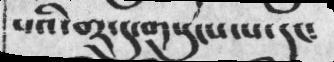པའི་བར་དུ་གསུངས་པ་དང༴
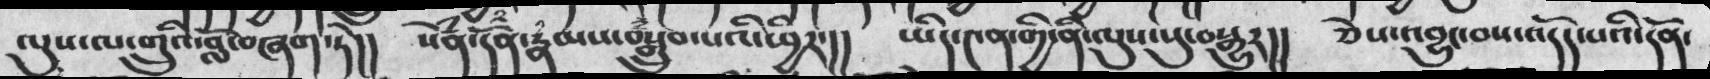ལུས་ལ་གྲུའི་བློ་བཞག་ཏེ།། སེཾན་དོན་རྣམས་བསྒྲུབ་པའི་ཕྱིར་།། ཡིད་༤ན་གྱི་ནི་ལུས་སུ་བསྒྱུར།། ཅེས་འབྱུང་བས་འདོད་པའི་དོན་
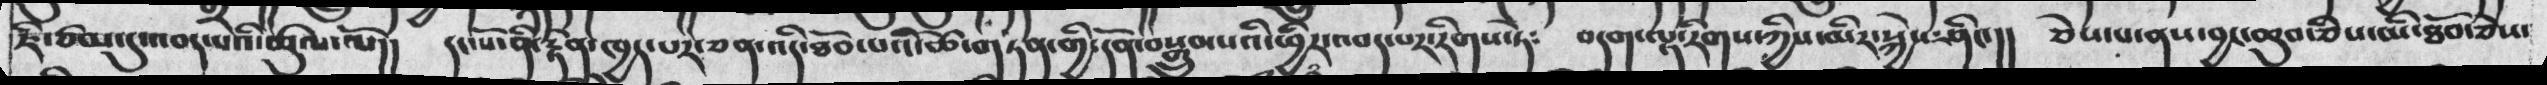ཇི་ཙམ་དུ་འབད་པའི་ཚུལ་ལོ།། དང་པོ་ནི་རྟེན་ཁྱད་པར་ཅན་འདི་ཐོབ་པའི་ཚེ་གཏན་གྱི་དོན་བསྒྲུབ་པའི་ཕྱིར་འབད་པར་རིགས་ཏེ༴ བདག་ལྷ་རིགས་ཀྱིས་མིར་སྐྱེས་ཤིང་།། ཅེས་པ་ནས་བྱང་ཆུབ་ཅེས་མི་ཐོབ་ཅེས་
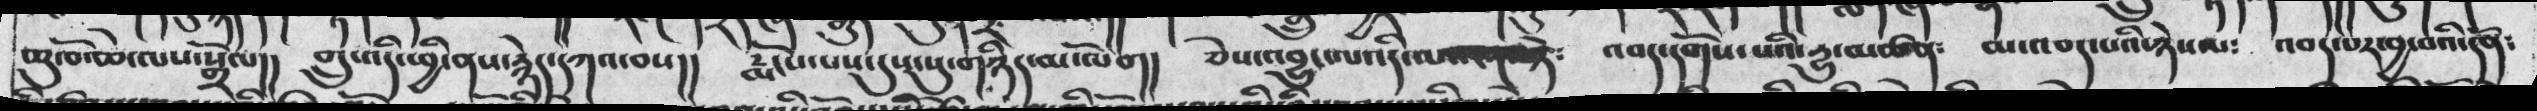ཆུ་བོ་ཆེ་ལས་སྒྲོལ།།  གྲུ་འདི་ཕྱི་ནས་རྙེད་དཀའ་བས།།   རྨོངས་པས་དུས་སུ་གཉིད་མ་ལོག།   ཅེས་འབྱུང་པ་འདི་ལ་     སྟེ༴   འབད་དགོས་པའི་དྱུ་མཚན༴   མ་འབད་པའི་ཉེས་པ༴   འབར་པར་བྱ་བའི་དོན༴
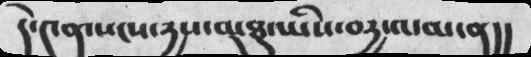དེ་༤ན་སངས་རྒྱས་མཐུ་ཡིས་བརྒྱ་ལམ་ན།།
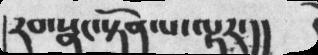།རབ་སྣང་སྟོན་པ་ལྟར་།།
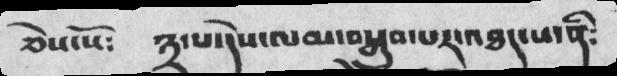ཅེས་སོ༴  ༣་པ་དེས་ལམ་བསྒྲུབ་པར་འཐད་པ་ནི༴
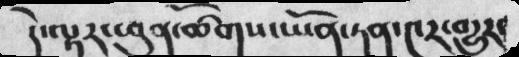དེ་ལྟར་ཕུན་ཚོགས་ཡོན་ཏན་༤ར་གྱུར་
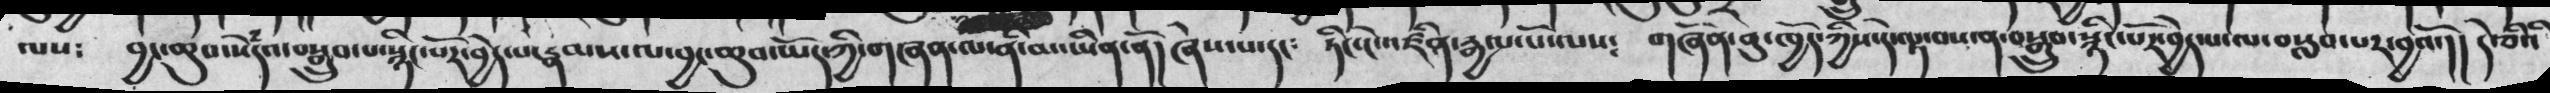ལས༴  བྱང་ཆུབ་སེདྃའ་བསྒྲུབ་་པ་སྙིང་པོར་བྱེད་པ་རྣམས་ལ་བྱང་ཆུབ་ཡོད་ཀྱི་གཞན་ལ་ནི་མ་ཡིན་ནོ།།ཞེས་པ་དང༴ ཏིང་ངེ་འཛིན་རྒྱལ་པོ་ལས༴ གཞོན་ནུ་ཁྱོད་ཀྱིས་དེ་ལྟ་བཔ་ན་བསྒྲུབ་སྙིང་པོར་བྱེད་པ་ལ་བསླབ་པར་བྱའོ།། དེ་བའི
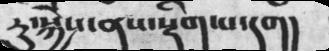རུ་སྐྱེས་ནས་སྡིག་པ་དག།
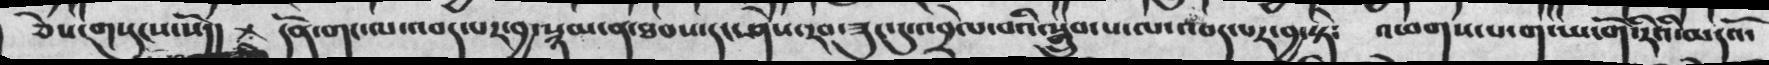ཅེས་གསུངས་སོ།། + དོན་གང་ལ་འབད་པར་བྱ་སྙམ་ན་ཐབས་དང་ཤེས་རབ་ཟུང་དུ་འབྲེལ་བའི་སྒྲུབ་པ་ལ་འབད་པར་བྱ་སྟེ༴  འཕགས་པ་ག་ཡ་གོ་རིའི་མདོའ་
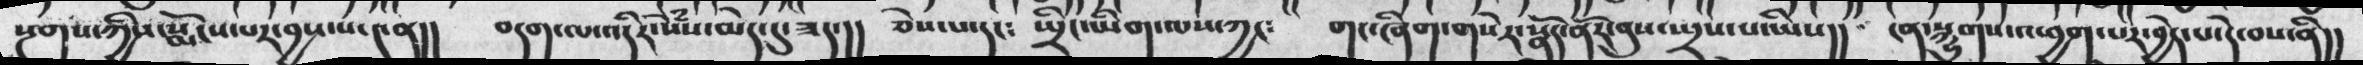སྔགས་ཀྱིས་སྨོངས་པར་བྱས་པ་༤ན།། བདག་ལ་འདིར་སེཾས་མེད་དུ་ཟད་།། ཅེས་པ་དང༴ སྤྲིང་ཡིག་ལས་ཀྱང༴ གང་ཞིག་གསེར་སྣོད་ནོར་བུས་སྤྲས་པ་ཡིས།། ངན་སྐྱུགས་འཕྱག་པར་བྱེད་པ་དེ་བས་ནི།།
